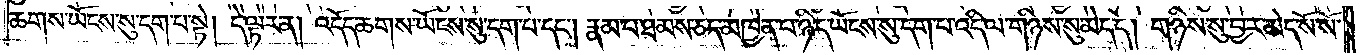ཆགས་ཡོངས་སུ་དག་པ་སྟེ། དེ་ལྟར་ན། འདོད་ཆགས་ཡོངས་སུ་དག་པ་དང༌། རྣམ་པ་ཐམས་ཅད་མཁྱེན་པ་ཉིད་ཡོངས་སུ་དག་པ་འདི་ལ་གཉིས་སུ་མེད་དེ། གཉིས་སུ་བྱར་མེད་སོ་སོ་
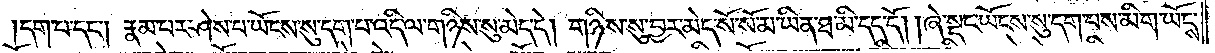དག་པ་དང༌། རྣམ་པར་ཤེས་པ་ཡོངས་སུ་དག་པ་འདི་ལ་གཉིས་སུ་མེད་དེ། གཉིས་སུ་བྱར་མེད་སོ་སོ་མ་ཡིན་ཐ་མི་དད་དོ། །ཞེ་སྡང་ཡོངས་སུ་དག་པས་མིག་ཡོངས་
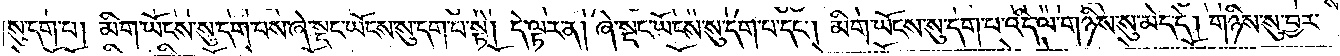སུ་དག་པ། མིག་ཡོངས་སུ་དག་པས་ཞེ་སྡང་ཡོངས་སུ་དག་པ་སྟེ། དེ་ལྟར་ན། ཞེ་སྡང་ཡོངས་སུ་དག་པ་དང༌། མིག་ཡོངས་སུ་དག་པ་འདི་ལ་གཉིས་སུ་མེད་དེ། གཉིས་སུ་བྱར་
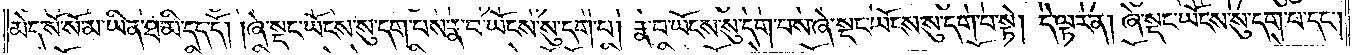མེད་སོ་སོ་མ་ཡིན་ཐ་མི་དད་དོ། །ཞེ་སྡང་ཡོངས་སུ་དག་པས་རྣ་བ་ཡོངས་སུ་དག་པ། རྣ་བ་ཡོངས་སུ་དག་པས་ཞེ་སྡང་ཡོངས་སུ་དག་པ་སྟེ། དེ་ལྟར་ན། ཞེ་སྡང་ཡོངས་སུ་དག་པ་དང༌།
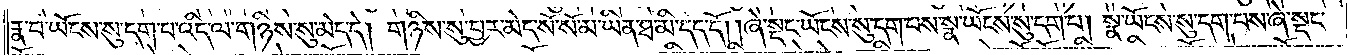རྣ་བ་ཡོངས་སུ་དག་པ་འདི་ལ་གཉིས་སུ་མེད་དེ། གཉིས་སུ་བྱར་མེད་སོ་སོ་མ་ཡིན་ཐ་མི་དད་དོ། །ཞེ་སྡང་ཡོངས་སུ་དག་པས་སྣ་ཡོངས་སུ་དག་པ། སྣ་ཡོངས་སུ་དག་པས་ཞེ་སྡང་
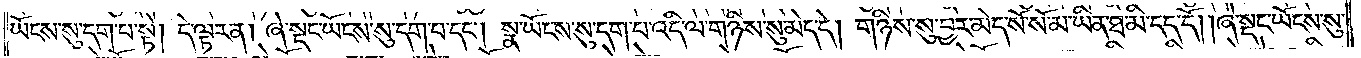ཡོངས་སུ་དག་པ་སྟེ། དེ་ལྟར་ན། ཞེ་སྡང་ཡོངས་སུ་དག་པ་དང༌། སྣ་ཡོངས་སུ་དག་པ་འདི་ལ་གཉིས་སུ་མེད་དེ། གཉིས་སུ་བྱར་མེད་སོ་སོ་མ་ཡིན་ཐ་མི་དད་དོ། །ཞེ་སྡང་ཡོངས་སུ་
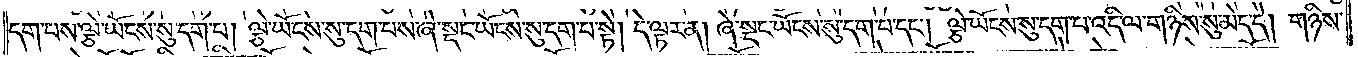དག་པས་ལྕེ་ཡོངས་སུ་དག་པ། ལྕེ་ཡོངས་སུ་དག་པས་ཞེ་སྡང་ཡོངས་སུ་དག་པ་སྟེ། དེ་ལྟར་ན། ཞེ་སྡང་ཡོངས་སུ་དག་པ་དང༌། ལྕེ་ཡོངས་སུ་དག་པ་འདི་ལ་གཉིས་སུ་མེད་དེ། གཉིས་
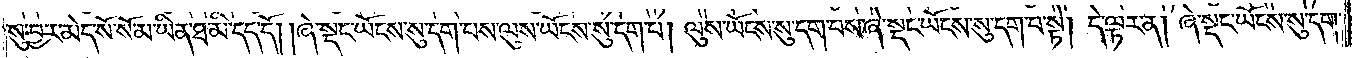སུ་བྱར་མེད་སོ་སོ་མ་ཡིན་ཐ་མི་དད་དོ༎ ཞེ་སྡང་ཡོངས་སུ་དག་པས་ལུས་ཡོངས་སུ་དག་པ། ལུས་ཡོངས་སུ་དག་པས་ཞེ་སྡང་ཡོངས་སུ་དག་པ་སྟེ། དེ་ལྟར་ན། ཞེ་སྡང་ཡོངས་སུ་དག་
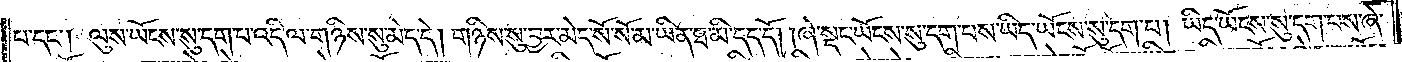པ་དང༌། ལུས་ཡོངས་སུ་དག་པ་འདི་ལ་གཉིས་སུ་མེད་དེ། གཉིས་སུ་བྱར་མེད་སོ་སོ་མ་ཡིན་ཐ་མི་དད་དོ། །ཞེ་སྡང་ཡོངས་སུ་དག་པས་ཡིད་ཡོངས་སུ་དག་པ། ཡིད་ཡོངས་སུ་དག་པས་ཞེ་
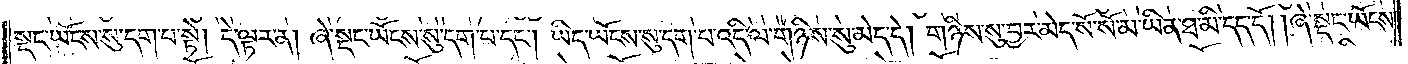སྡང་ཡོངས་སུ་དག་པ་སྟེ། དེ་ལྟར་ན། ཞེ་སྡང་ཡོངས་སུ་དག་པ་དང༌། ཡིད་ཡོངས་སུ་དག་པ་འདི་ལ་གཉིས་སུ་མེད་དེ། གཉིས་སུ་བྱར་མེད་སོ་སོ་མ་ཡིན་ཐ་མི་དད་དོ། །ཞེ་སྡང་ཡོངས་
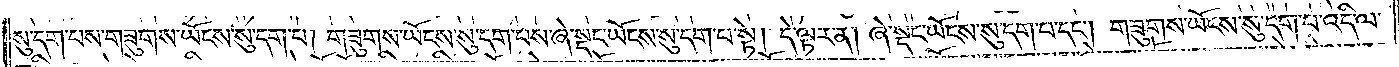སུ་དག་པས་གཟུགས་ཡོངས་སུ་དག་པ། གཟུགས་ཡོངས་སུ་དག་པས་ཞེ་སྡང་ཡོངས་སུ་དག་པ་སྟེ། དེ་ལྟར་ན། ཞེ་སྡང་ཡོངས་སུ་དག་པ་དང༌། གཟུགས་ཡོངས་སུ་དག་པ་འདི་ལ་
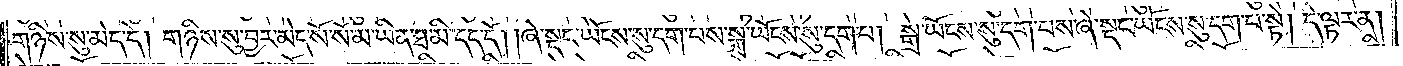གཉིས་སུ་མེད་དེ། གཉིས་སུ་བྱར་མེད་སོ་སོ་མ་ཡིན་ཐ་མི་དད་དོ། །ཞེ་སྡང་ཡོངས་སུ་དག་པས་སྒྲ་ཡོངས་སུ་དག་པ། སྒྲ་ཡོངས་སུ་དག་པས་ཞེ་སྡང་ཡོངས་སུ་དག་པ་སྟེ། དེ་ལྟར་ན་
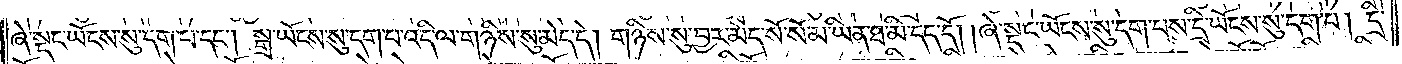ཞེ་སྡང་ཡོངས་སུ་དག་པ་དང༌། སྒྲ་ཡོངས་སུ་དག་པ་འདི་ལ་གཉིས་སུ་མེད་དེ། གཉིས་སུ་བྱར་མེད་སོ་སོ་མ་ཡིན་ཐ་མི་དད་དོ། །ཞེ་སྡང་ཡོངས་སུ་དག་པས་དྲི་ཡོངས་སུ་དག་པ། དྲི་
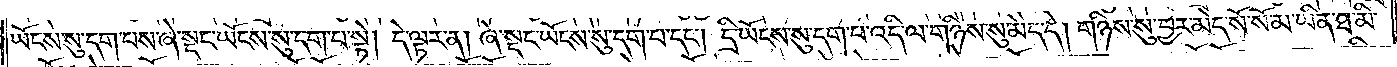ཡོངས་སུ་དག་པས་ཞེ་སྡང་ཡོངས་སུ་དག་པ་སྟེ། དེ་ལྟར་ན། ཞེ་སྡང་ཡོངས་སུ་དག་པ་དང༌། དྲི་ཡོངས་སུ་དག་པ་འདི་ལ་གཉིས་སུ་མེད་དེ། གཉིས་སུ་བྱར་མེད་སོ་སོ་མ་ཡིན་ཐ་མི་
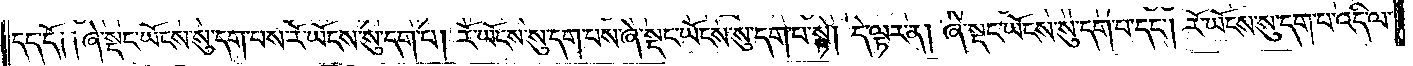དད་དོ༑ ༑ཞེ་སྡང་ཡོངས་སུ་དག་པས་རོ་ཡོངས་སུ་དག་པ། རོ་ཡོངས་སུ་དག་པས་ཞེ་སྡང་ཡོངས་སུ་དག་པ་སྟེ། དེ་ལྟར་ན། ཞེ་སྡང་ཡོངས་སུ་དག་པ་དང༌། རོ་ཡོངས་སུ་དག་པ་འདི་ལ་
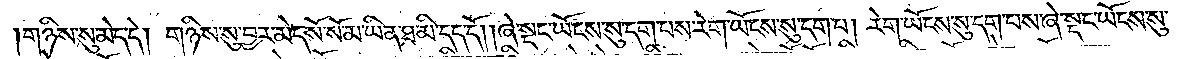གཉིས་སུ་མེད་དེ། གཉིས་སུ་བྱར་མེད་སོ་སོ་མ་ཡིན་ཐ་མི་དད་དོ། །ཞེ་སྡང་ཡོངས་སུ་དག་པས་རེག་ཡོངས་སུ་དག་པ། རེག་ཡོངས་སུ་དག་པས་ཞེ་སྡང་ཡོངས་སུ་
